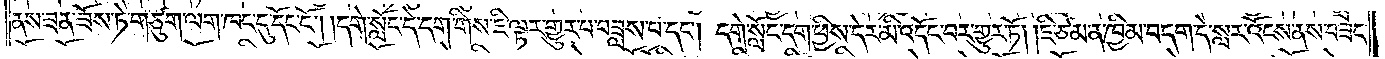ནས་ཟན་ཟོས་ཏེ་གཙུག་ལག་ཁང་དུ་དོང་ངོ༌། །དགེ་སློང་དེ་དག་གིས་ཇི་ལྟར་གྱུར་པ་བཟླས་པ་དང༌། དགེ་སློང་དག་ཕྱིས་དེར་མི་འདོང་བར་གྱུར་ཏོ། །ཇི་ཙམ་ན་ཁྱིམ་བདག་དེ་སླར་འོངས་ནས་བཟང་
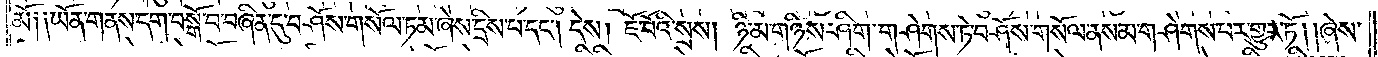མོ༑ ༑ཡོན་གནས་དག་བསྒོ་བ་བཞིན་དུ་བཤོས་གསོལ་ཏམ་ཞེས་དྲིས་པ་དང༌། དེས། ཇོ་བོའི་སྲས། ཉི་མ་གཉིས་ཤིག་གཤེགས་ཏེ་བཤོས་གསོལ་ནས་མ་གཤེགས་པར་གྱུར་ཏོ། །ཞེས་
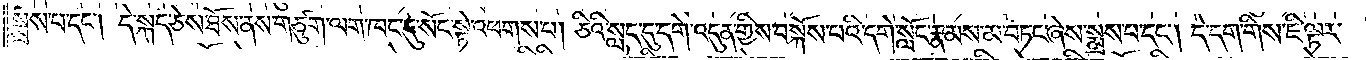སྨྲས་པ་དང༌། དེ་སྐད་ཅེས་ཐོས་ནས་གཙུག་ལག་ཁང་དུ་སོང་སྟེ་འཕགས་པ། ཅིའི་སླད་དུ་དགེ་འདུན་གྱིས་བསྐོས་པའི་དགེ་སློང་རྣམས་མ་བཏང་ཞེས་སྨྲས་པ་དང༌། དེ་དག་གིས་ཇི་ལྟར་
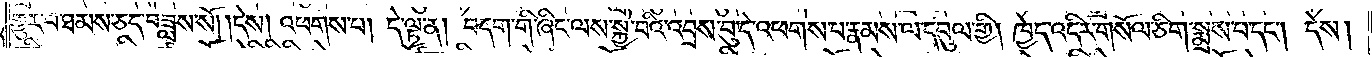གྱུར་པ་ཐམས་ཅད་བཟླས་སོ། །དེས། འཕགས་པ། དེ་ལྟ་ན། བདག་གི་ཞིང་ལས་སྐྱེ་བའི་འབྲས་བུ་དེ་འཕགས་པ་རྣམས་ལ་དབུལ་གྱི། ཁྱེད་འདིར་གསོལ་ཅིག་སྨྲས་པ་དང༌། དེས།
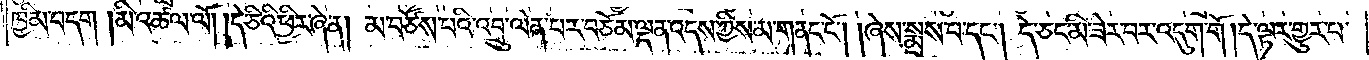ཁྱིམ་བདག །མི་འཚལ་ལོ། །དེ་ཅིའི་ཕྱིར་ཞེ་ན། མ་བཙོས་པའི་འབྲུ་ལེན་པར་བཅོམ་ལྡན་འདས་ཀྱིས་མ་གནང་ངོ༌། །ཞེས་སྨྲས་པ་དང༌། དེ་ཅང་མི་ཟེར་བར་འདུག་གོ །དེ་ལྟར་གྱུར་པ་
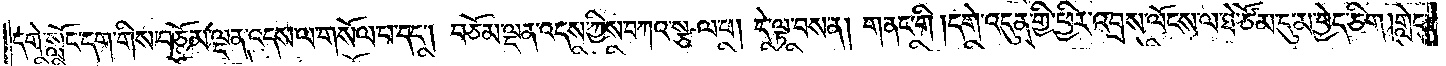དགེ་སློང་དག་གིས་བཅོམ་ལྡན་འདས་ལ་གསོལ་པ་དང༌། བཅོམ་ལྡན་འདས་ཀྱིས་བཀའ་སྩལ་པ། དེ་ལྟ་བས་ན། གནང་གི །དགེ་འདུན་གྱི་ཕྱིར་འབྲས་ལོངས་ལ་ཐེ་ཚོམ་དུ་མ་བྱེད་ཅིག །གླེང་
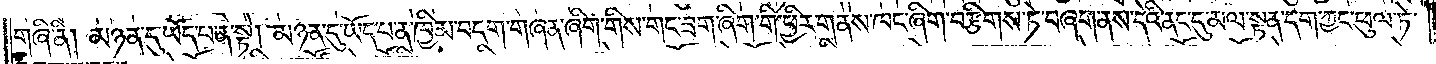གཞི་ནི། མཉན་དུ་ཡོད་པ་ན་སྟེ། མཉན་དུ་ཡོད་པ་ན་ཁྱིམ་བདག་གཞན་ཞིག་གིས་གང་ཟག་ཞིག་གི་ཕྱིར་གནས་ཁང་ཞིག་བརྩིགས་ཏེ་བཞག་ནས་དེའི་ནང་དུ་མལ་སྟན་དག་ཀྱང་ཕུལ་ཏེ་
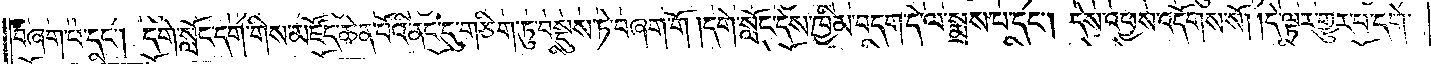བཞག་པ་དང༌། དགེ་སློང་དག་གིས་མཛོད་ཆེན་པོའི་ནང་དུ་གཅིག་ཏུ་བསྡུས་ཏེ་བཞག་གོ །དགེ་སློང་དེས་ཁྱིམ་བདག་དེ་ལ་སྨྲས་པ་དང༌། དེས་འཕྱས་འདོགས་སོ། །དེ་ལྟར་གྱུར་པ་དགེ་
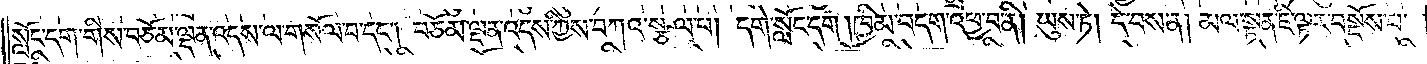སློང་དག་གིས་བཅོམ་ལྡན་འདས་ལ་གསོལ་བ་དང༌། བཅོམ་ལྡན་འདས་ཀྱིས་བཀའ་སྩལ་པ། དགེ་སློང་དག །ཁྱིམ་བདག་འཕྱ་བ་ནི། ཡུས་ཏེ། དེ་བས་ན། མལ་སྟན་ཇི་ལྟར་བསྔོས་པ་
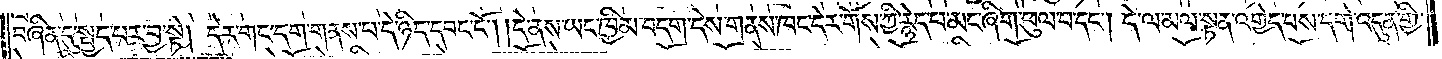བཞིན་དུ་སྤྱད་པར་བྱ་སྟེ། དེར་གང་དག་གནས་པ་དེ་ཉིད་དབང་ངོ༌། །དེ་ནས་ཡང་ཁྱིམ་བདག་དེས་གནས་ཁང་དེར་གོས་ཀྱི་རྙེད་པ་མང་ཞིག་ཕུལ་བ་དང༌། དེ་ལ་མལ་སྟན་འགྱེད་པས་དགེ་འདུན་གྱི་
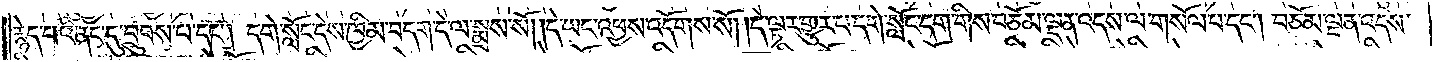རྙེད་པའི་ནང་དུ་བྲུབས་པ་དང༌། དགེ་སློང་དེས་ཁྱིམ་བདག་དེ་ལ་སྨྲས་སོ། །དེ་ཡང་འཕྱས་འདོགས་སོ། །དེ་ལྟར་གྱུར་པ་དགེ་སློང་དག་གིས་བཅོམ་ལྡན་འདས་ལ་གསོལ་པ་དང༌། བཅོམ་ལྡན་འདས་
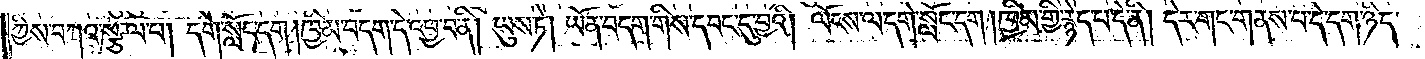ཀྱིས་བཀའ་སྩལ་པ། དགེ་སློང་དག །ཁྱིམ་བདག་དེ་འཕྱ་བ་ནི། ཡུས་ཏེ། ཡོན་བདག་གིས་དབང་དུ་བྱའི། ལོངས་ལ་དགེ་སློང་དག །ཁྱིམ་གྱི་རྙེད་པ་དེ་ནི། དེར་གང་གནས་པ་དེ་དག་ཉིད་
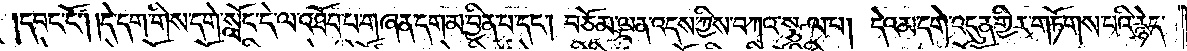དབང་ངོ༌། །དེ་དག་གིས་དགེ་སློང་དེ་ལ་འཐོབ་པ་གཞན་དག་མ་བྱིན་པ་དང༌། བཅོམ་ལྡན་འདས་ཀྱིས་བཀའ་སྩལ་པ། དེའམ་དགེ་འདུན་གྱིར་གཏོགས་པའི་རྙེད་
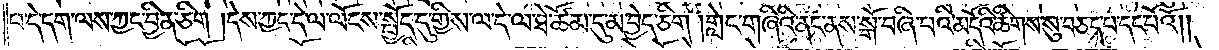པ་དེ་དག་ལས་ཀྱང་བྱིན་ཅིག །དེས་ཀྱང་དེ་ལ་ལོངས་སྤྱོད་དུ་གྱིས་ལ་དེ་ལ་ཐེ་ཚོམ་དུ་མ་བྱེད་ཅིག །གླེང་གཞིའི་ནང་ནས་སྒོ་བཞི་པའི་མདོའི་ཚིགས་སུ་བཅད་པ་དང་པོའོ༎
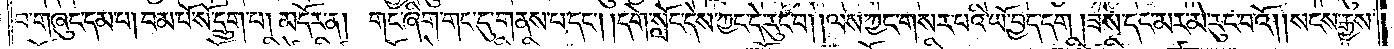འདུལ་བ་གཞུང་དམ་པ། བམ་པོ་སོ་དྲུག་པ། མདོར་ན། གང་ཞིག་གང་དུ་གནས་པ་དང༌། །དགེ་སློང་དེས་ཀྱང་དེ་རུང་བ། །ལས་ཀྱང་གསར་པའི་ཡོ་བྱད་དག །ཟས་དང་མར་མེ་རུང་བའོ། །སངས་རྒྱས་
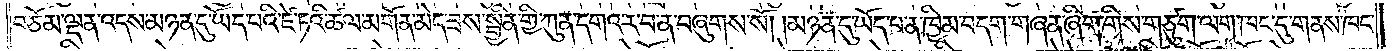བཅོམ་ལྡན་འདས་མཉན་དུ་ཡོད་པའི་ཛེ་ཏའི་ཚལ་མགོན་མེད་ཟས་སྦྱིན་གྱི་ཀུན་དགའ་ར་བ་ན་བཞུགས་སོ། །མཉན་དུ་ཡོད་པ་ན་ཁྱིམ་བདག་གཞན་ཞིག་གིས་གཙུག་ལག་ཁང་དུ་གནས་ཁང་
